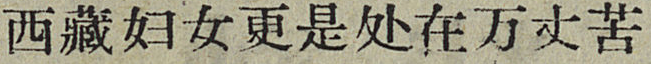西藏妇女更是处在万丈苦
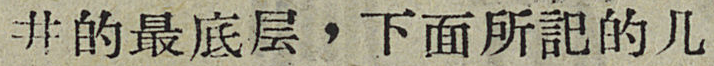井的最底层，下面所記的几
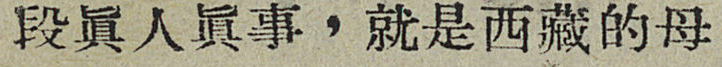段眞人眞事，就是西藏的母
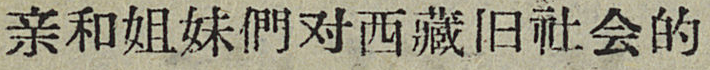亲和姐妹們对西藏旧社会的
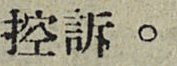控訴。
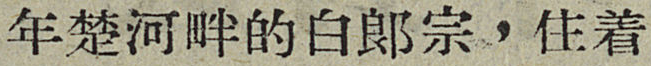年楚河畔的白朗宗，住着
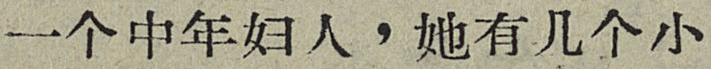一个中年妇人，她又几个小
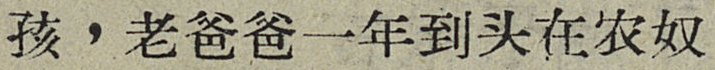子，老爸爸一年到头在农奴
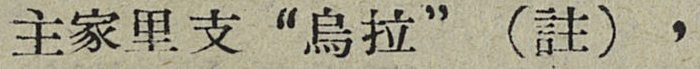主家里支“烏拉”（註），
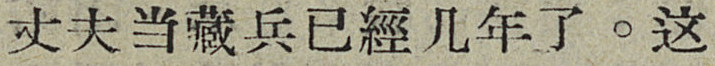丈夫当藏兵已經几年了。这
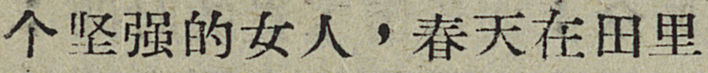个坚强的女人，春天在田里
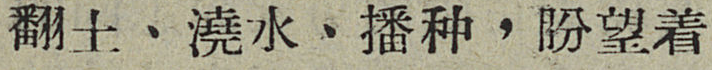翻土、澆水、播种、盼望着
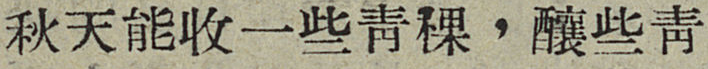秋天能收一些靑稞，釀些靑
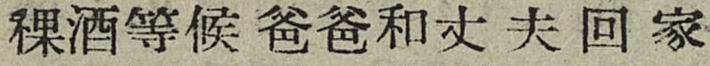稞酒等候爸爸和丈夫回家
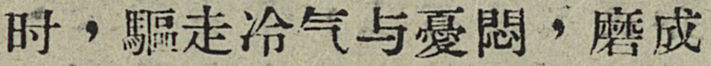时，驅走冷气与憂悶，磨成
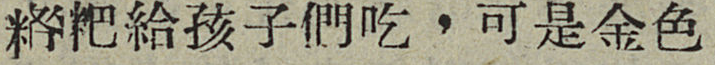糌粑給孩子們吃，可是金色
